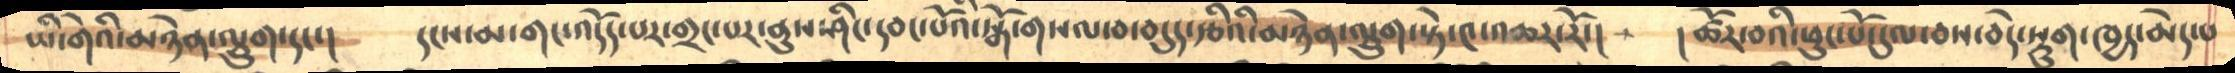ཡི་གེའི་མཉེན་ལྕུག་དང་།     དངས་མ་གང་འདོད་པར་གྲང་པར་ནུས་ཤིང་དབང་པོའི་སྒོ་གསལ་བ་བདུད་རྩིའི་མཉེན་ལྕུག་སྟེ་༤་འཆར་རོ་།   །ཚོར་བའི་ཕུང་པོ་དུལ་བས་བདེ་སྡུག་་ཁྱད་མེད་པ
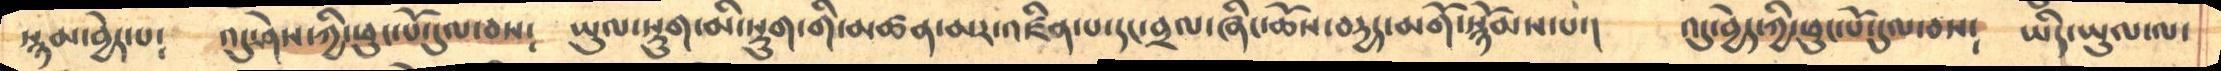སྙམ་བྱེད་པ༴     འདུ་ཤེས་ཀྱི་ཕུང་པོ་དུལ་བས༴   ཡུལ་སྡུག་མི་སྡུག་གི་མཚན་མར་འཛིན་པ་དང་བྲལ་ཞིང་ཆོས་བདྱད་མགོ་སྙོམས་པ་།    འདུ་བྱེད་ཀྱི་ཕུང་པོ་དུལ་བས༴   ཡིད་ཡུལ་ལ་
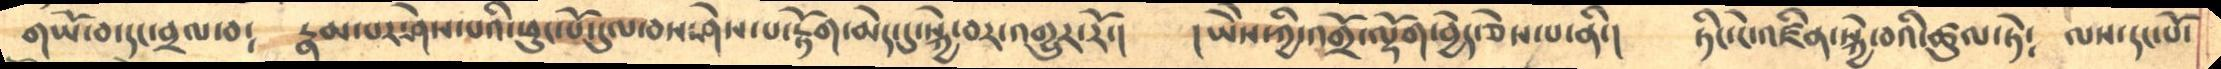གཡོ་བ་དང་བྲལ་བ༴    རྣམ་པར་ཤེས་པའི་ཕུང་པོ་དུལ་བས་ཤེས་པ་རྟོག་མེད་དུ་སྐྱེ་བར་འགྱུར་རོ་།    །ཡཻས་ཀྱི་འགྲོ་ལྡོག་བྱེད་ཅེས་པ་ནི་།   ཏིང་ངེ་འཛིན་སྐྱེ་བའི་ཚུལ་ཏེ༴   ལས་དང་པོ་
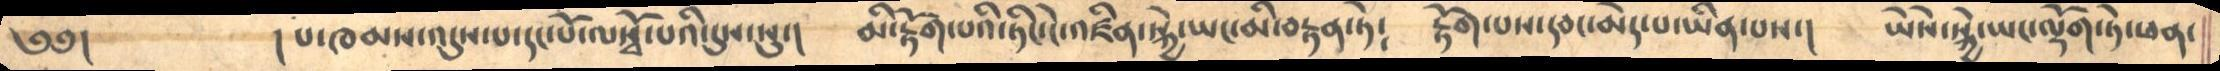༄༅།           །པ་ཁམས་འདུས་པ་དང་པོ་ལསྭོ་པའི་དུས་སུ་།    མི་རྟོག་པའི་ཏིང་ངེ་འཛིན་སྐྱེ་ཡང་མི་བརྟན་ཏེ༴    རྟོག་པས་དབང་མེད་པ་ཡིན་པས་།    ཡཻས་སྐྱེ་ཡང་ལྡོག་ཏེ་ཕན་
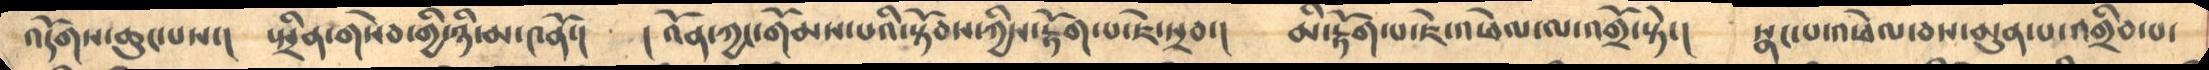འདོགས་ཆུང་པས་།     སྤྲིན་གསེབ་གྱི་ཉི་མ་༤ནོ་།    །འོན་ཀྱང་གོམས་པའི་སྟོབས་ཀྱིས་རྟོག་པ་ཇེ་སྲབ་།   མི་རྟོག་པ་འཕེལ་ལ་འགྲོ་སྟེ་།   སྣང་པ་འཕེལ་བས་མུན་པ་འགྲིབ་པ་
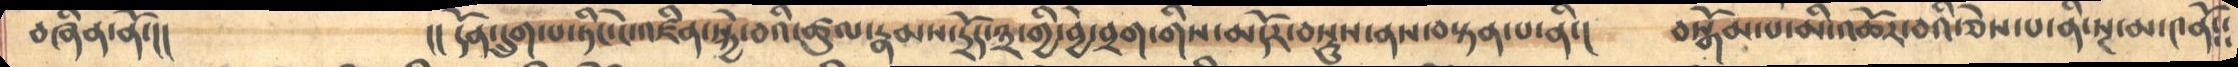བཞིན་ནོ་།།          །།དོན་དྲུག་པ་ཏིང་ངེ་འཛིན་སྐྱེ་བའི་ཚུལ་རྣམས་དྲོད་༣་གྱི་བྱེ་བྲག་གིས་མདོར་བསྡུས་ནས་བསྟན་པ་ནི་།    བསྒོམ་པ་མི་འཆོར་བའི་ཅེས་པ་ནི་སྔ་མ་༤ནོ༴༴
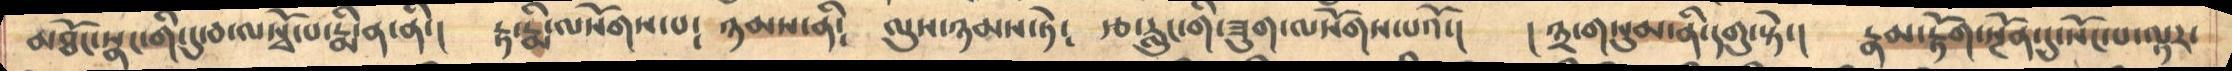མཐོང་སྣང་གི་དུ་བ་ལསྭོ་པ་རྨི་ན་ནི་།   རྟ་རྨི་ལསོགས་པ༴   ཉམས་ནི༴  ལུས་ཉམས་ཏེ༴   རྩ་རླུང་གི་ཟུག་ལསོགས་པའོ་།    །༣་གསུམ་ནི་དགུ་སྟེ་།    རྣམ་རྟོག་སྔོན་དུ་སོང་པ་ལྟར་
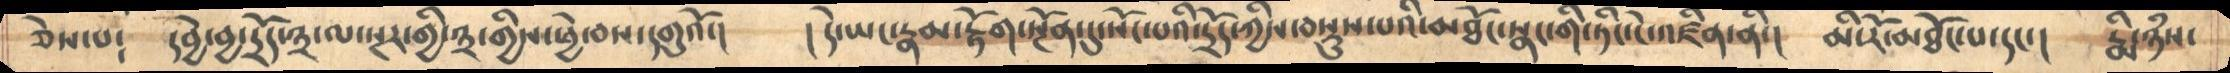ཅེས་པ༴   དབྱེ་བྱ་དྲོད་༣་ལ་སྔར་གྱི་༣་གྱིས་ཕྱེ་བས་དགུའོ་།      །དེ་ཡང་རྣམ་རྟོག་སྔོན་དུ་སོང་པའི་དྲོད་ཀྱིས་བསྡུས་པའི་མཐོང་སྣང་གི་ཏིང་ངེ་འཛིན་ནི་།   མི་རོ་མཐོང་པ་དང་།   རྨི་ཉཾས་
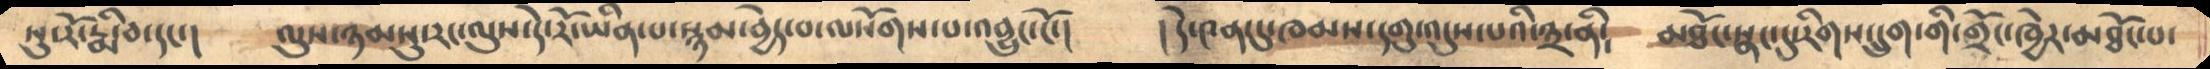སུ་རོ་རྨི་བ་དང་།    ལུས་ཉམསུ་རང་ལུས་དེ་རོ་ཡིན་པ་སྙམ་བྱེད་པ་ལསོགས་པ་འབྱུང་ངོ་།     །དེ་༤ན་དུ་ཁམས་དགུ་འདུས་པའི་༣་ནི༴   མཐོང་སྣང་དུ་རིགས་དྲུག་གི་གྲོང་ཁྱེར་མཐོང་པ་
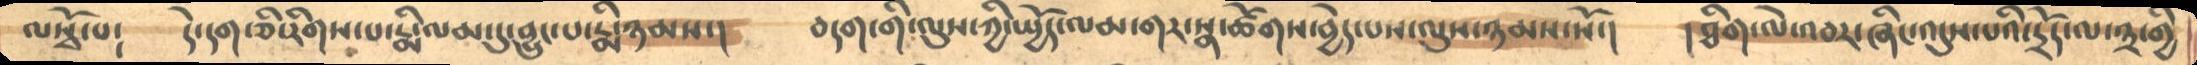ལསྭོ་པ༴   དེ་དག་ཅི་རིགས་པ་རྨི་ལམ་དུ་བྱུང་པ་རྨི་ཉམས་།    བདག་གི་ལུས་ཀྱི་སྤྱོད་ལམ་གར་སྣ་ཚོགས་བྱེད་པས་ལུས་ཉམས་སོ་།   །ཐིག་ལེ་འབར་ཞིང་འདུས་པའི་དྲོད་ལ་༣་གྱི
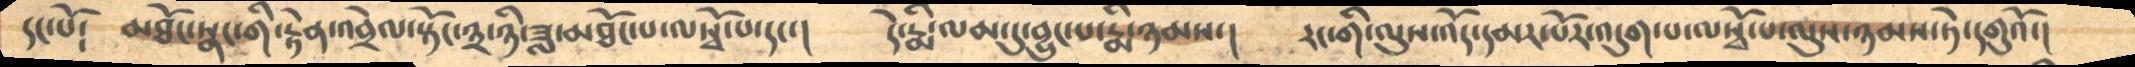དང་པོ༴    མཐོང་སྣང་གི་རྟེན་འབྲེལ་སྟོང་༣་ཉི་ཟླ་མཐོང་པ་ལསྭོ་པ་དང་།     དེ་རྨི་ལམ་དུ་བྱུང་པ་རྨི་ཉམས་།     རང་གི་ལུས་འོད་དམར་པོར་འདུག་པ་ལསྭོ་པ་ལུས་ཉམས་ཏེ་དགུའོ་།
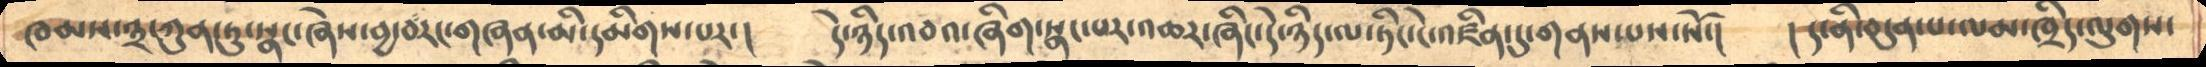ཁམས་༣་ཀུན་ཏུ་སྣང་ཞེས་བྱ་བརང་གཞན་མི་དམིགས་པར་།    དེ་ཉིད་འབའ་ཞིག་སྣང་པར་འཆར་ཞིང་དེ་ཉིད་ལ་ཏིང་ངེ་འཛིན་དུ་གནས་པས་སོ་།   །ད་ནི་བདུན་པ་ལམ་ཁྲིད་ལུགས་
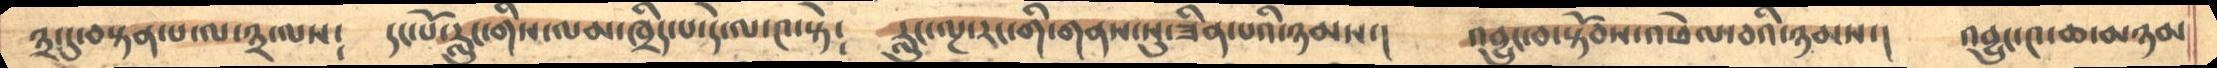༣་དུ་བསྟན་པ་ལ་༣་ལས༴    དང་པོ་རླུང་གི་ལམ་ཁྲིད་པ་དེ་ལ་༤་སྟེ༴     རླུང་ལྔ་རང་གི་གནས་སུ་ཟིན་པའི་ཉམས་།   འབྱུང་བ་སྟོབས་འཕེལ་བའི་ཉམས་།   འབྱུང་༤་ཆ་མཉམ
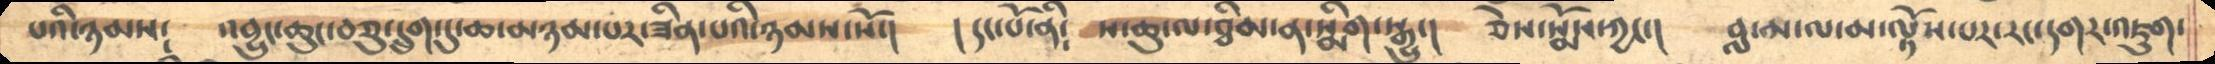པའི་ཉམས༴     འབྱུང་ཆུང་བཅུ་དྲུག་དུ་ཆ་མཉམ་པར་ཟིན་པའི་ཉམས་སོ་།   །དང་པོ་ནི༴   ས་ཆུ་ལ་ཐིམ་ན་སྨིག་སྒྱུ་།   ཅེས་སྨོས་ཀྱང་།   བླ་མ་ལ་མ་ལྟོས་པར་རང་དགར་འཇུག་
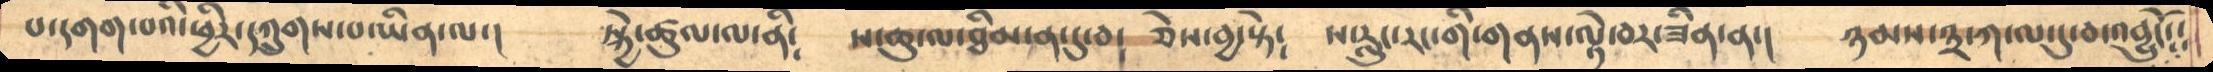པ་དགག་པའི་ཕྱིར་དཀྲུགས་པ་ཡིན་ལ་།   སྐྱེ་ཚུལ་ལ་ནི༴    ས་ཆུ་ལ་ཐིམ་ན་དུ་བ༴   ཅེས་བྱ་སྟེ༴   ས་རླུང་རང་གི་གནས་ལྟེ་བར་ཟིན་ན་།   ཉམས་༣་ཀ་ལ་དུ་བ་འབྱུངོ༴༴
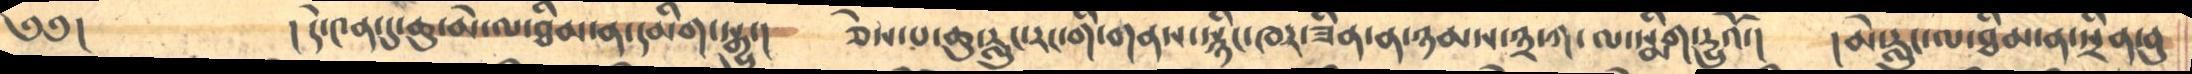༄༅།           །དེ་༤ན་དུ་ཆུ་མེ་ལ་ཐིམ་ན་དམིག་སྒྱུ་།      ཅེས་པ་ཆུ་རླུང་རང་གི་གནས་སྙིང་ཁར་ཟིན་ན་ཉམས་༣་ཀ་ལ་སྨིག་དྱུའོ་།   །མེ་རླུང་ལ་ཐིམ་ན་སྲིན་བུ
